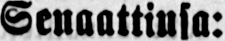Senaattinsa:
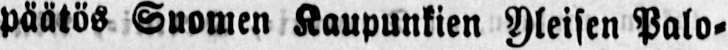Päätös Suomen Kaupunkien Yleisen Palo-
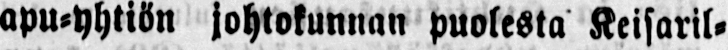apu-yhtiön johtokunnan puolesta Keisaril-
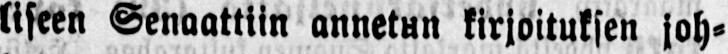liseen Senaattiin annetun kirjoituksen joh-
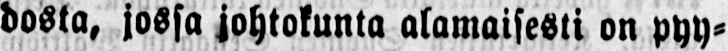dosta, jossa johtokunta alamaisesti on pyy-
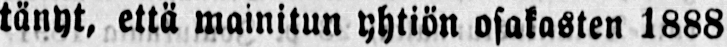tänyt, että mainitun yhtiön osakasten 1888
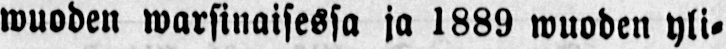wuoden warsinaisessa ja 1889 wuoden yli-
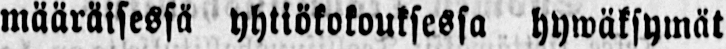määräisessä yhtiökokouksessa hywäksymät
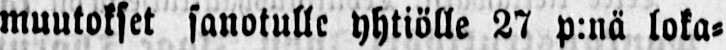muutokset sanotulle yhtiölle 27 p:nä loka-
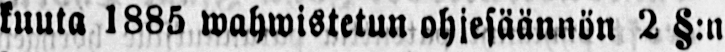kuuta 1885 wahwistetun ohjesäännön 2 §:n
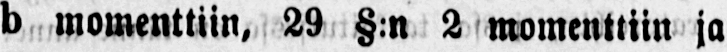d momenttiin, 29 §:n 2 momenttiin ja
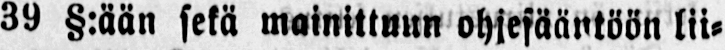39 §:ään sekä mainittuun ohjesääntöön lii-
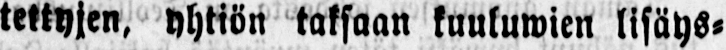tettyjen, yhtiön taksaan kuuluwien lisäys-
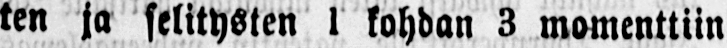ten ja selitysten 1 kohdan 3 momenttiin
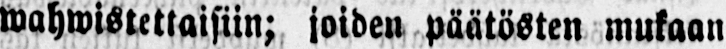wahwistettaisiin; joiden päätösten mukaan
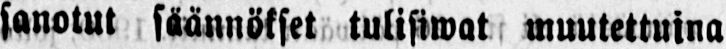sanotut säännökset tulisiwat muutettuina
